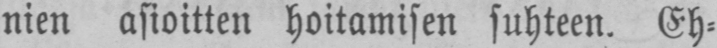nien asioitten hoitamisen suhteen. Eh-
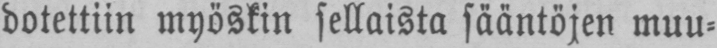dotettiin myöskin sellaista sääntöjen muu-
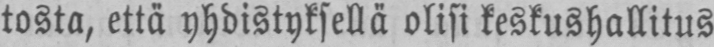tosta, että yhdistyksellä olisi keskushallitus
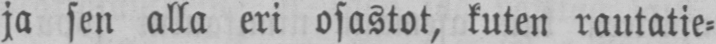ja sen alla eri osastot, kuten rautatie-
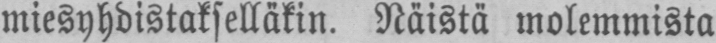miesyhdistakselläkin. Näistä molemmista
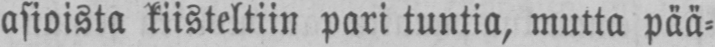asioista kiisteltiin pari tuntia, mutta pää-
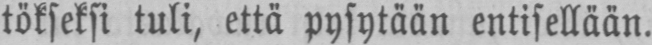tökseksi tuli, että pysytään entisellään.
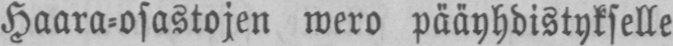Haara-osastojen wero pääyhdistykselle
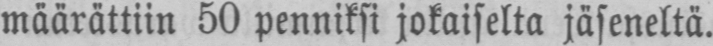määrättiin 50 penniksi jokaiselta jäseneltä.
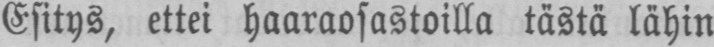Esitys, ettei haaraosastoilla tästä lähin
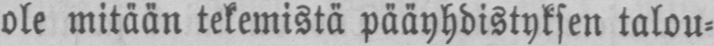ole mitään tekemistä pääyhdistyksen talou-
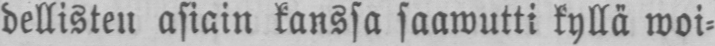dellisten asiain kanssa saawutti kyllä woi-
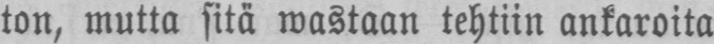ton, mutta sitä wastaan tehtiin ankaroita
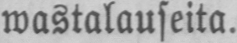wastalauseita.
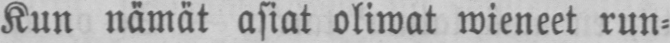Kun nämät asiat oliwat wieneet run-
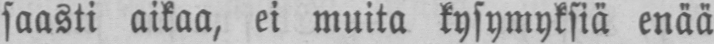saasti aikaa, ei muita kysymyksiä enää
